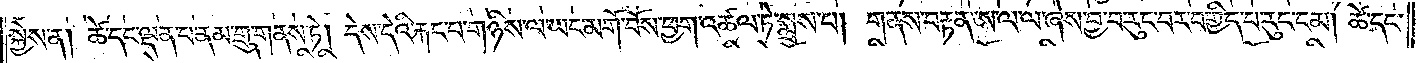སྐྱེས་ན། ཚེ་དང་ལྡན་པ་ནམ་གྲུ་གནས་ཏེ། དེས་དེའི་རྐང་པ་གཉིས་ལ་ཡང་མགོ་བོས་ཕྱག་འཚལ་ཏེ་སྨྲས་པ། གནས་བརྟན་ཨ་ལ་ལ་ཞེས་བྱ་བ་རུང་བར་བགྱིད་པ་རུང་ངམ། ཚེ་དང་
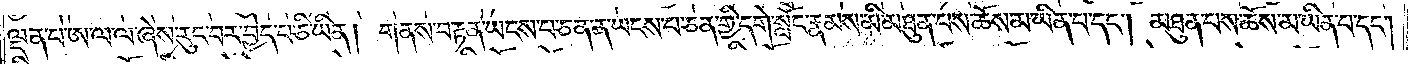ལྡན་པ་ཨ་ལ་ལ་ཞེས་རུང་བར་བྱེད་པ་ཅི་ཡིན། གནས་བརྟན་ཡངས་པ་ཅན་ན་ཡངས་པ་ཅན་གྱི་དགེ་སློང་རྣམས་མི་མཐུན་པས་ཆོས་མ་ཡིན་པ་དང༌། མཐུན་པས་ཆོས་མ་ཡིན་པ་དང༌།
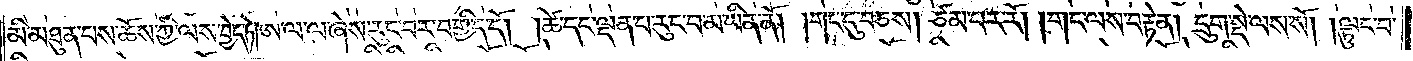མི་མཐུན་པས་ཆོས་ཀྱི་ལས་བྱེད་ཏེ། ཨ་ལ་ལ་ཞེས་རུང་བར་བགྱིད་དོ། །ཚེ་དང་ལྡན་པ་རུང་བ་མ་ཡིན་ནོ། །གང་དུ་བཅས། ཙམ་པར་རོ། །གང་ལས་བརྟེན། དྲུག་སྡེ་ལས་སོ། །ལྟུང་བ་
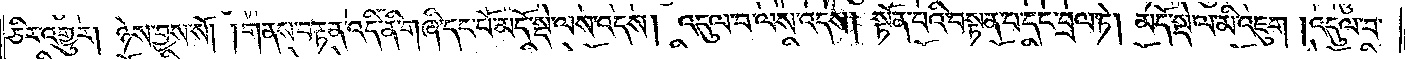ཅིར་འགྱུར། ཉེས་བྱས་སོ། །གནས་བརྟན་འདི་ནི་གཞི་དང་པོ་མདོ་སྡེ་ལས་འདས། འདུལ་བ་ལས་འདས། སྟོན་པའི་བསྟན་པ་དང་བྲལ་ཏེ། མདོ་སྡེ་ལ་མི་འཇུག །འདུལ་བ་
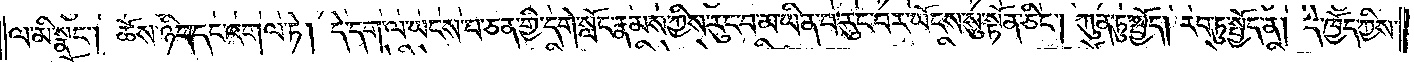ལ་མི་སྣང༌། ཆོས་ཉིད་དང་འགལ་ཏེ། དེ་དག་ལ་ཡངས་པ་ཅན་གྱི་དགེ་སློང་རྣམས་ཀྱིས་རུང་བ་མ་ཡིན་པ་རུང་བར་ཡོངས་སུ་སྟོན་ཅིང༌། ཀུན་ཏུ་སྤྱོད། རབ་ཏུ་སྤྱོད་ན། དེ་ཁྱོད་ཀྱིས་
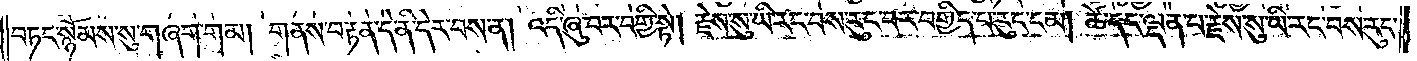བཏང་སྙོམས་སུ་གཞག་གམ། གནས་བརྟན་དེ་ནི་དེར་བས་ན། འདི་ཞུ་བར་བགྱི་སྟེ། རྗེས་སུ་ཡི་རང་བས་རུང་བར་བགྱིད་པ་རུང་ངམ། ཚེ་དང་ལྡན་པ་རྗེས་སུ་ཡི་རང་བས་རུང་
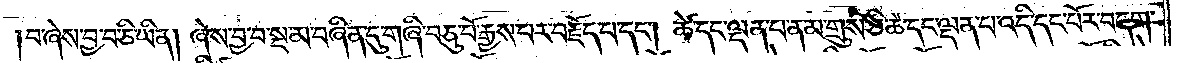བ་ཞེས་བྱ་བ་ཅི་ཡིན། ཞེས་བྱ་བ་སྔ་མ་བཞིན་དུ་གཞི་བཅུ་པོ་རྒྱས་པར་བརྗོད་པ་དང༌། ཚེ་དང་ལྡན་པ་ནམ་གྲུས་ཅི་ཚེ་དང་ལྡན་པ་འདི་དང་པོར་བདག་
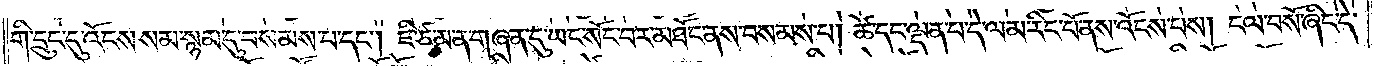གི་དྲུང་དུ་འོངས་སམ་སྙམ་དུ་བསམས་པ་དང༌། ཇི་ཙམ་ན་གཞན་དུ་ཡང་སོང་བར་མཐོང་ནས་བསམས་པ། ཚེ་དང་ལྡན་པ་དེ་ལམ་རིང་པོ་ནས་འོངས་པས། ངལ་བསོ་ཞིང་དེ་
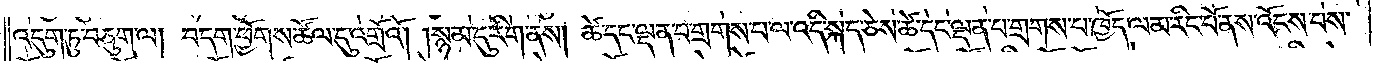འདུག་ཏུ་བཅུག་ལ། བདག་ཕྱོགས་ཚོལ་དུ་འགྲོའོ། །སྙམ་དུ་རིག་ནས། ཚེ་དང་ལྡན་པ་གྲགས་པ་ལ་འདི་སྐད་ཅེས་ཚེ་དང་ལྡན་པ་གྲགས་པ་ཁྱོད་ལམ་རིང་པོ་ནས་འོངས་པས་
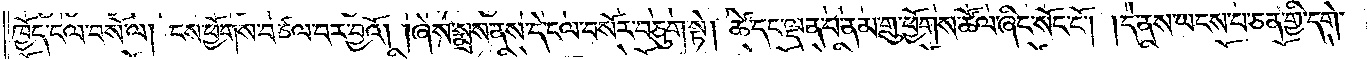ཁྱོད་ངལ་བསོ་ལ། ངས་ཕྱོགས་བཙལ་བར་བྱའོ། །ཞེས་སྨྲས་ནས་དེ་ངལ་བསོར་བཅུག་སྟེ། ཚེ་དང་ལྡན་པ་ནམ་གྲུ་ཕྱོགས་ཚོལ་ཞིང་སོང་ངོ༌། །དེ་ནས་ཡངས་པ་ཅན་གྱི་དགེ་
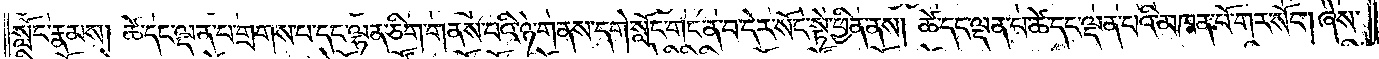སློང་རྣམས། ཚེ་དང་ལྡན་པ་གྲགས་པ་དང་ལྷན་ཅིག་གནས་པའི་ཉེ་གནས་དགེ་སློང་གང་ན་བ་དེར་སོང་སྟེ་ཕྱིན་ནས། ཚེ་དང་ལྡན་པ་ཚེ་དང་ལྡན་པའི་མཁན་པོ་གར་སོང༌། ཞེས་
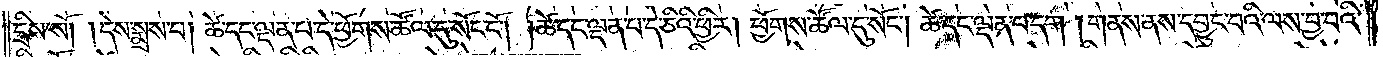དྲིས་སོ། །དེས་སྨྲས་པ། ཚེ་དང་ལྡན་པ་དེ་ཕྱོགས་ཚོལ་དུ་སོང་ངོ༌། །ཚེ་དང་ལྡན་པ་དེ་ཅིའི་ཕྱིར། ཕྱོགས་ཚོལ་དུ་སོང༌། ཚེ་དང་ལྡན་པ་དག །གནས་ནས་དབྱུང་བའི་ལས་བྱ་བའི་
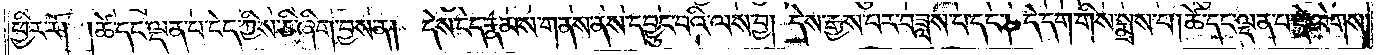ཕྱིར་རོ། །ཚེ་དང་ལྡན་པ་ངེད་ཀྱིས་ཅི་ཞིག་བྱས་ན། དེས་ངེད་རྣམས་གནས་ནས་དབྱུང་བའི་ལས་བྱ། དེས་རྒྱས་བར་བཟླས་པ་དང༌། དེ་དག་གིས་སྨྲས་པ། ཚེ་དང་ལྡན་པ་དེ་ལེགས་
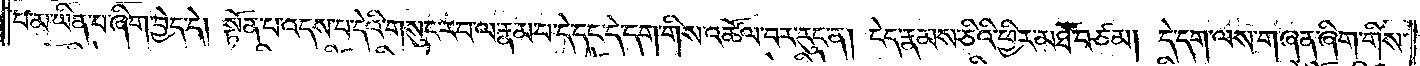པ་མ་ཡིན་པ་ཞིག་བྱེད་དེ། སྟོན་པ་འདས་པ་དེའི་གསུང་རབ་ལ་རྣམ་པ་དེ་དང་དེ་དག་གིས་འཚོལ་བར་རུང་ན། ངེད་རྣམས་ཅིའི་ཕྱིར་མཐོ་བཙམ། དེ་དག་ལས་གཞན་ཞིག་གིས་
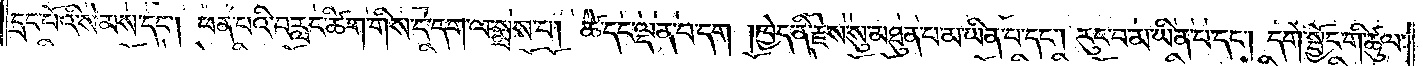དྲང་པོའི་སེམས་དང༌། ཕན་པའི་བརླང་ཚིག་གིས་དེ་དག་ལ་སྨྲས་པ། ཚེ་དང་ལྡན་པ་དག །ཁྱེད་ནི་རྗེས་སུ་མཐུན་པ་མ་ཡིན་པ་དང༌། རུང་བ་མ་ཡིན་པ་དང༌། དགེ་སྦྱོང་གི་ཚུལ་
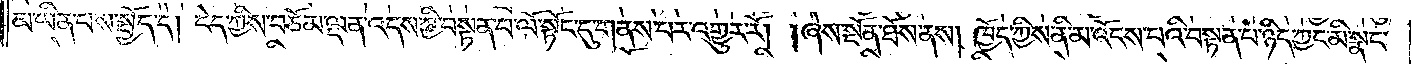མ་ཡིན་པས་སྤྱོད་དེ། ངེད་ཀྱིས་བཅོམ་ལྡན་འདས་ཀྱི་བསྟན་པ་ལོ་སྟོང་དུ་གནས་པར་འགྱུར་རོ། །ཞེས་སྔོན་ཐོས་ནས། ཁྱོད་ཀྱིས་ནི་མ་འོངས་པའི་བསྟན་པ་ཉིད་ཀྱང་མི་སྣང་
